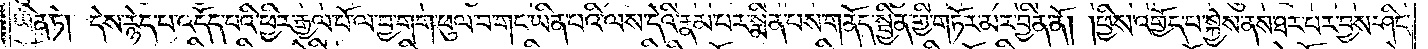ཡིན་ཏེ། དེས་རྙེད་པ་འདོད་པའི་ཕྱིར་རྒྱལ་པོ་ལ་བྱ་གག་ཕུལ་བ་གང་ཡིན་པའི་ལས་དེའི་རྣམ་པར་སྨིན་པས་གནོད་སྦྱིན་གྱི་གཏོར་མར་བྱིན་ནོ། །ཕྱིས་འགྱོད་པ་སྐྱེས་ནས་ཐར་པར་བྱས་ཤིང་
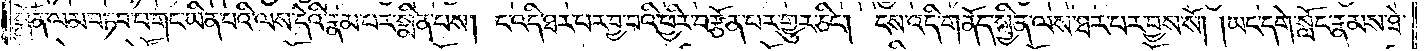སྨོན་ལམ་བཏབ་པ་གང་ཡིན་པའི་ལས་དེའི་རྣམ་པར་སྨིན་པས། ང་འདི་ཐར་པར་བྱ་བའི་ཕྱིར་བརྩོན་པར་གྱུར་ཅིང༌། ངས་འདི་གནོད་སྦྱིན་ལས་ཐར་པར་བྱས་སོ། །ཡང་དགེ་སློང་རྣམས་ཐེ་
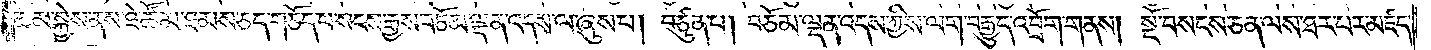ཚོམ་སྐྱེས་ནས་ཐེ་ཚོམ་ཐམས་ཅད་གཅོད་པ་སངས་རྒྱས་བཅོམ་ལྡན་འདས་ལ་ཞུས་པ། བཙུན་པ། བཅོམ་ལྡན་འདས་ཀྱིས་ལག་བརྒྱུད་འབྲོག་གནས། སྔོ་བསངས་ཅན་ལས་ཐར་པ་མཛད་
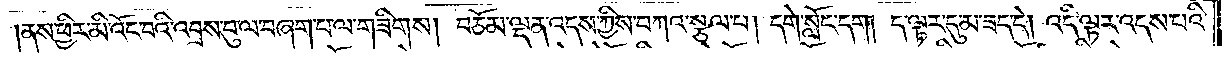ནས་ཕྱིར་མི་འོང་བའི་འབྲས་བུ་ལ་བཞག་པ་ལ་གཟིགས། བཅོམ་ལྡན་འདས་ཀྱིས་བཀའ་སྩལ་པ། དགེ་སློང་དག །ད་ལྟར་དུ་མ་ཟད་དེ། འདི་ལྟར་འདས་པའི་
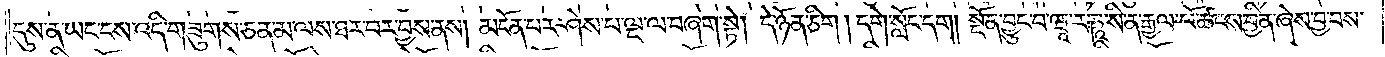དུས་ན་ཡང་ངས་འདི་གཟུགས་ཅན་མ་ལས་ཐར་བར་བྱས་ནས། མངོན་པར་ཤེས་པ་ལྔ་ལ་བཞག་སྟེ། དེ་ཉོན་ཅིག །དགེ་སློང་དག །སྔོན་བྱུང་བ་ཝཱ་ར་ཎཱ་སི་ན་རྒྱལ་པོ་ཚངས་བྱིན་ཞེས་བྱ་བས་
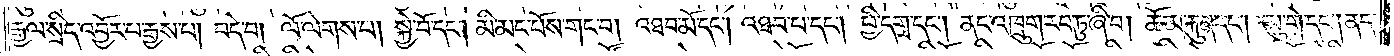རྒྱལ་སྲིད་འབྱོར་པ་རྒྱས་པ། བདེ་བ། ལོ་ལེགས་པ། སྐྱེ་བོ་དང༌། མི་མང་པོས་གང་བ། འཐབ་མོ་དང༌། འཐབ་པ་དང༌། ཕྱི་དགྲ་དང༌། ནང་འཁྲུག་རབ་ཏུ་ཞི་བ། ཆོམ་རྐུན་དང༌། མུ་གེ་དང༌། ནད་
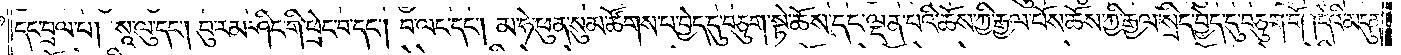དང་བྲལ་བ། སཱ་ལུ་དང༌། བུ་རམ་ཤིང་གི་ཕྲེང་བ་དང༌། བ་ལང་དང༌། མ་ཧེ་ཕུན་སུམ་ཚོགས་པ་བྱེད་དུ་བཅུག་སྟེ་ཆོས་དང་ལྡན་པའི་ཆོས་ཀྱི་རྒྱལ་པོས་ཆོས་ཀྱི་རྒྱལ་སྲིད་བྱེད་དུ་བཅུག་གོ །དེའི་མདུན་
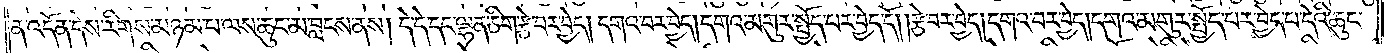ན་འདོན་དེས་རིགས་མཉམ་པ་ལས་ཆུང་མ་བླངས་ནས། དེ་དེ་དང་ལྷན་ཅིག་རྩེ་བར་བྱེད། དགའ་བར་བྱེད། དགའ་མགུར་སྤྱོད་པར་བྱེད་དོ། །རྩེ་བར་བྱེད། དགའ་བར་བྱེད། དགའ་མགུར་སྤྱོད་པར་བྱེད་པ་དེའི་ཆུང་
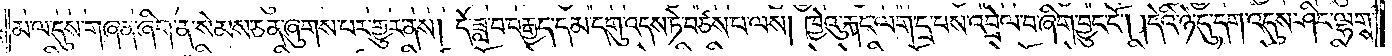མ་ལ་དུས་གཞན་ཞིག་ན་སེམས་ཅན་ཞུགས་པར་གྱུར་ནས། དེ་ཟླ་བ་བརྒྱད་དམ་དགུ་འདས་ཏེ་བཙས་པ་ལས། ཁྱེའུ་རྐང་ལག་དྲ་བས་འབྲེལ་བ་ཞིག་བྱུང་ངོ༌། །དེའི་ཉེ་དུ་དག་འདུས་ཤིང་ལྷགས་
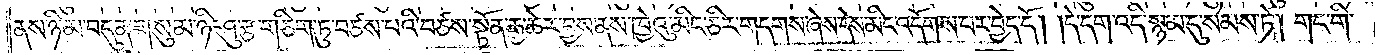ནས་ཉི་མ་བདུན་གསུམ་ཉི་ཤུ་རྩ་གཅིག་ཏུ་བཙས་པའི་བཙས་སྟོན་རྒྱ་ཆེར་བྱས་ནས་ཁྱེའུ་མིང་ཅིར་གདགས་ཞེས་དེས་མིང་འདོགས་པར་བྱེད་དོ། །དེ་དག་འདི་སྙམ་དུ་སེམས་ཏེ། གང་གི་
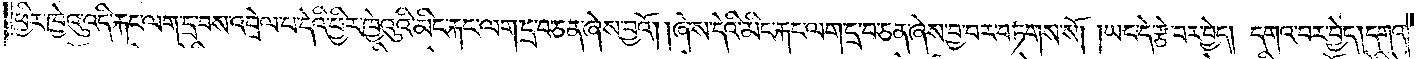ཕྱིར་ཁྱེའུ་འདི་རྐང་ལག་དྲ་བས་འབྲེལ་བ་དེའི་ཕྱིར་ཁྱེའུའི་མིང་རྐང་ལག་དྲ་བ་ཅན་ཞེས་བྱའོ། །ཞེས་དེའི་མིང་རྐང་ལག་དྲ་བ་ཅན་ཞེས་བྱ་བར་བཏགས་སོ། །ཡང་དེ་རྩེ་བར་བྱེད། དགའ་བར་བྱེད། དགའ་
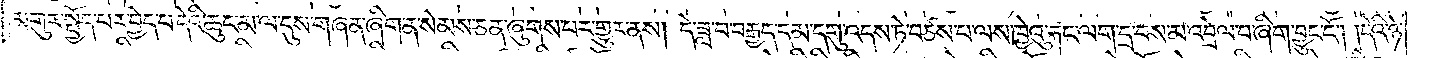མགུར་སྤྱོད་པར་བྱེད་པ་དེའི་ཆུང་མ་ལ་དུས་གཞན་ཞིག་ན་སེམས་ཅན་ཞུགས་པར་གྱུར་ནས། དེ་ཟླ་བ་བརྒྱད་དམ་དགུ་འདས་ཏེ་བཙས་པ་ལས་ཁྱེའུ་རྐང་ལག་དྲ་བས་མ་འབྲེལ་བ་ཞིག་བྱུང་ངོ༌། །དེའི་ཉེ་
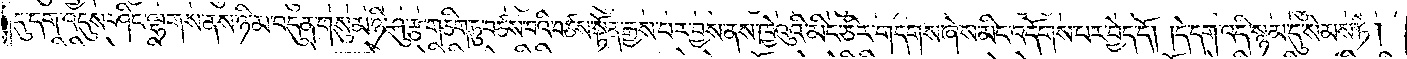དུ་དག་འདུས་ཤིང་ལྷགས་ནས་ཉི་མ་བདུན་གསུམ་ཉི་ཤུ་རྩ་གཅིག་ཏུ་བཙས་པའི་བཙས་སྟོན་རྒྱས་པར་བྱས་ནས་ཁྱེའུའི་མིང་ཅིར་གདགས་ཞེས་མིང་འདོགས་པར་བྱེད་དོ། །དེ་དག་འདི་སྙམ་དུ་སེམས་ཏེ།
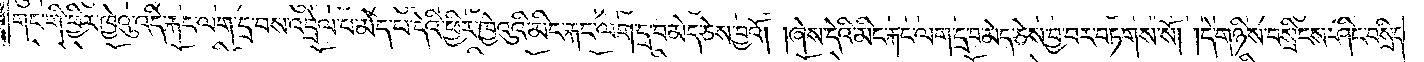གང་གི་ཕྱིར་ཁྱེའུ་འདི་རྐང་ལག་དྲ་བས་འབྲེལ་པ་མེད་པ་དེའི་ཕྱིར་ཁྱེའུའི་མིང་རྐང་ལག་དྲ་བ་མེད་ཅེས་བྱའོ། །ཞེས་དེའི་མིང་རྐང་ལག་དྲ་བ་མེད་ཅེས་བྱ་བར་བཏགས་སོ། །དེ་གཉིས་བསྲིངས་ཤིང་བསྲིང་
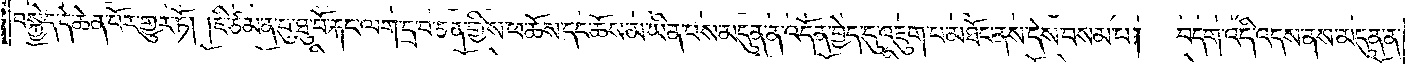བསྐྱེད་དེ་ཆེན་པོར་གྱུར་ཏོ། །ཇི་ཙམ་ན་བུ་ཐུ་བོ་རྐང་ལག་དྲ་བ་ཅན་གྱིས་ཕ་ཆོས་དང་ཆོས་མ་ཡིན་པས་མདུན་ན་འདོན་བྱེད་དུ་འཇུག་པ་མཐོང་ནས་དེས་བསམ་པ། བདག་འདི་འདས་ནས་མདུན་ན་
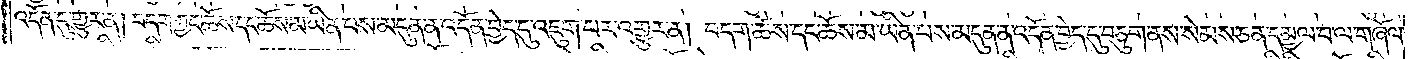འདོན་དུ་གྱུར་ན། བདག་ཀྱང་ཆོས་དང་ཆོས་མ་ཡིན་པས་མདུན་ན་འདོན་བྱེད་དུ་འཇུག་པར་འགྱུར་ན། བདག་ཆོས་དང་ཆོས་མ་ཡིན་པས་མདུན་ན་འདོན་བྱེད་དུ་བཅུག་ནས་སེམས་ཅན་དམྱལ་བ་ལ་གཞོལ་
